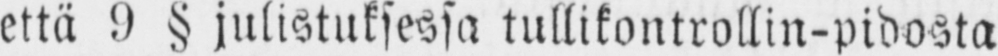että 9 § julistuksessa tullikontrollin-pidosta
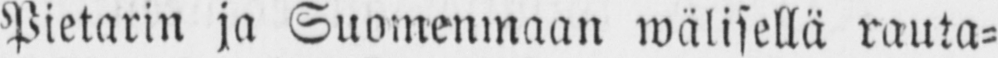Pietarin ja Suomenmaan wälisellä rauta-
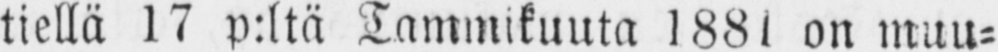tiellä 17 p:ltä Tammikuuta l881 on muu-
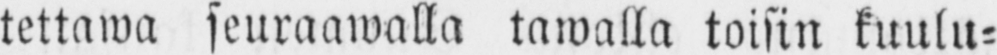tettawa seuraawalla tawalla toisin kuulu-
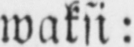waksi:
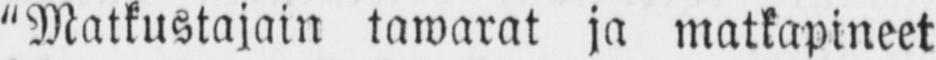"Matkustajani tawarat ja matkapineet
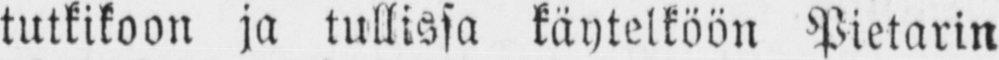tutkikoon ja tullissa käytelköön Pietarin
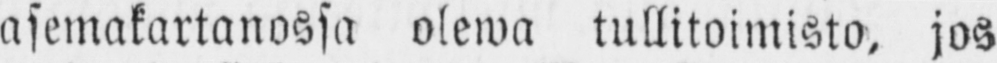asemakartanossa olewa tullitoimista, jos
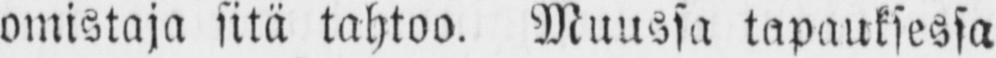omistaja sitä tahtoo. Muussa tapauksessa
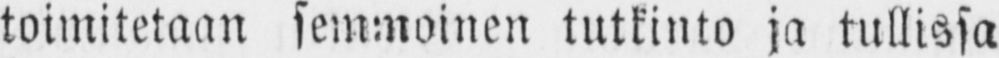toimitetaan semmoinen tutkinto ja tullissa
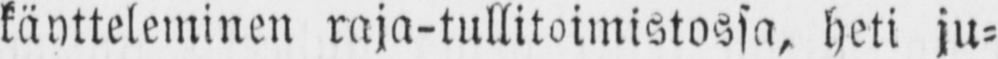käytteleminen raja-tullitoimistossa, heti ju-
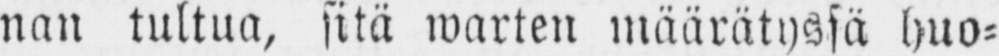nan tultua, sitä warten määrätyssä huo-
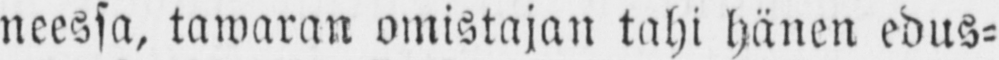neessa, tawaran omistajan tahi hänen edus-
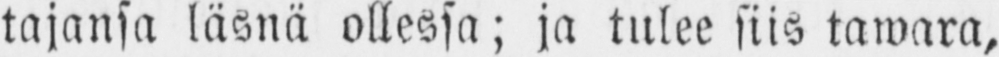tajansa läsnä ollessa; ja tulee siis tawara,
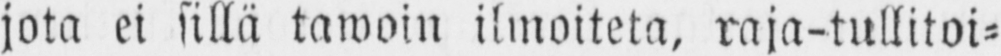jota ei sillä tawoin ilmoiteta, raja-tullitoi-
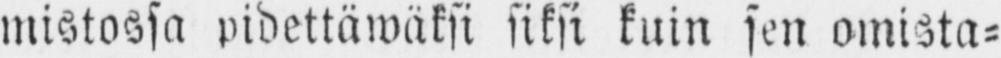mistossa pidettäwäksi siksi kuin sen omista-
